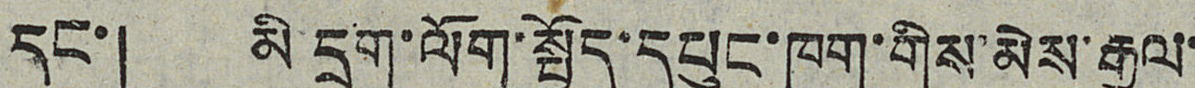དང་། མི དྲག་ལོག་སྤྱོད་དཔུང་ཁག་གིས་མེས་རྒྱལ་
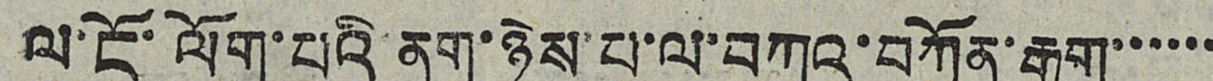ལ་ངོ་ལོག་པའི ནག་ཉེས་པ་ལ་བཀའ་བཀྱོན་རྒྱག་་་་་་
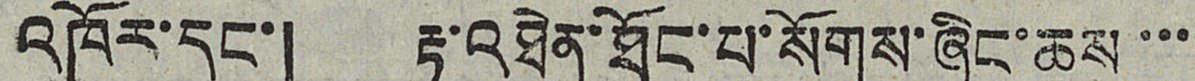འཁོར་དང་། རྟ་འཐེན་ཐོང་པ་སོགས་ཞིང་ཆས་་་་
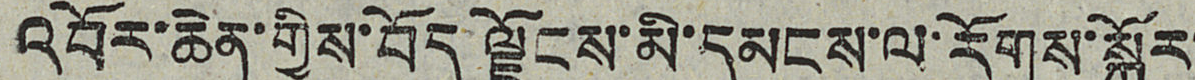འབོར་ཆེན་གྱིས་བོད ལྗོངས་མི་དམངས་ལ་རོགས་སྐྱོར་
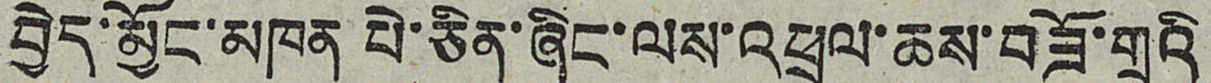བྱེད་མྱོང་མཁན པེ་ཅིན་ཞིང་ལས་འཕྲུལ་ཆས་བཟོ་གྲའི
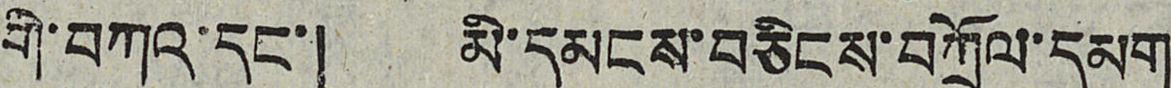གི་བཀའ་དང་། མི་དམངས་བཅིངས་བཀྲོལ་དམག་
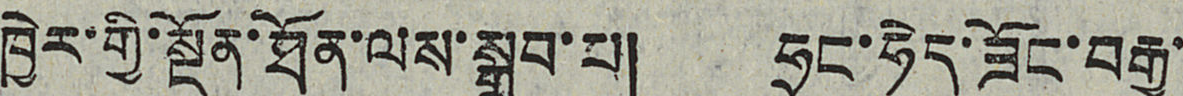ཁྱེར་གྱི་སྔོན་ཐོན་ལས་སྒྲུབ་པ། ཧྲང་ཧེད་ཟོང་བརྒྱ་
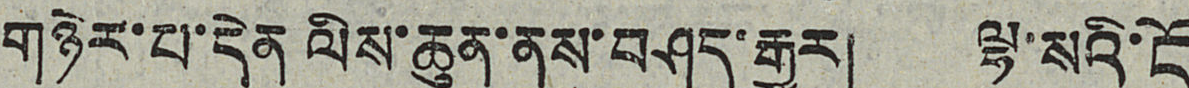གཉེར་པ་དེན ལིས་ཆུན་ནས་བཤད་རྒྱུར། ལྷ་སའི་ངོ
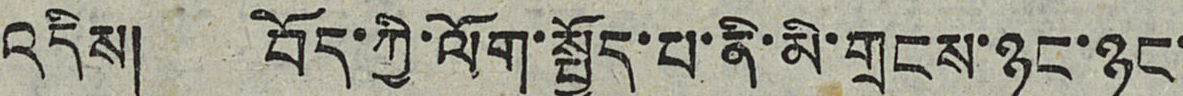འདིས། བོད་ཀྱི་ལོག་སྤྱོད་པ་ནི་མི་གྲངས་ཉུང་ཉུང་
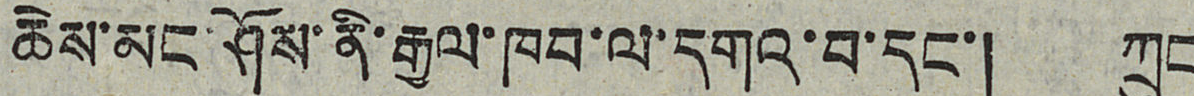ཆེས་མང་ཤོས་ནི་རྒྱལ་ཁབ་ལ་དགའ་བ་དང་། ཀྲུང
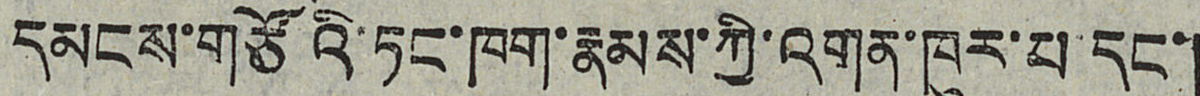དམངས་གཙོའི་ཏང་ཁག་རྣམས་ཀྱི་འགན་ཁུར་པ་དང་།
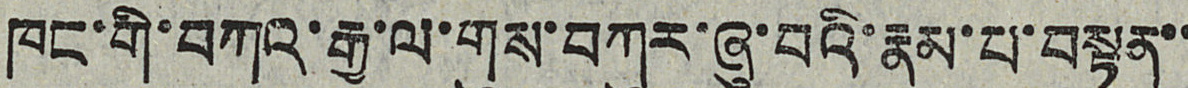ཁང་གི་བཀའ་རྒྱ་ལ་གུས་བཀུར་ཞུ་བའི་རྣམ་པ་བསྟན་་
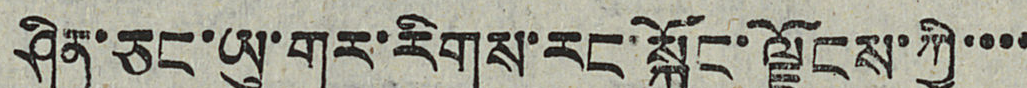ཤིན་ཅང་ཡུ་གུར་རིགས་རང་སྐྱོང་ལྗོངས་ཀྱི་་་་
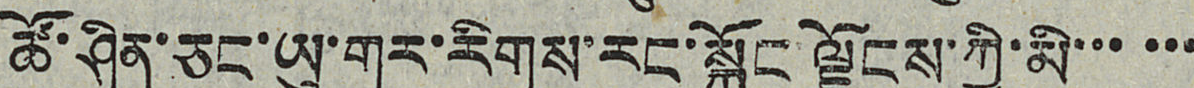ཚོ་ཤིན་ཅང་ཡུ་གུར་རིགས་རང་སྐྱོང ལྗོངས་ཀྱི་མི་་་་་་
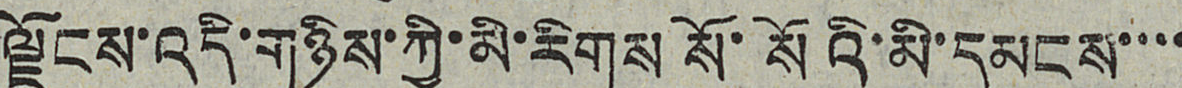ལྗོངས་འདི་གཉིས་ཀྱི་མི་རིགས སོ་སོའི་མི་དམངས་་་་
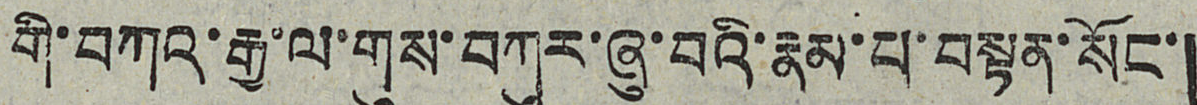གི་བཀའ་རྒྱ་ལ་གུས་བཀུར་ཞུ་བའི་རྣམ་པ་བསྟན་སོང་།
